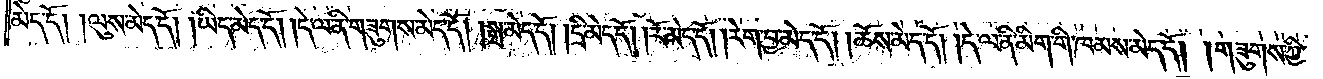མེད་དོ། །ལུས་མེད་དོ། །ཡིད་མེད་དོ། །དེ་ལ་ནི་གཟུགས་མེད་དོ། །སྒྲ་མེད་དོ། །དྲི་མེད་དོ། །རོ་མེད་དོ། །རེག་བྱ་མེད་དོ། །ཆོས་མེད་དོ། །དེ་ལ་ནི་མིག་གི་ཁམས་མེད་དོ། །གཟུགས་ཀྱི་
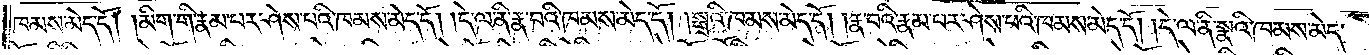ཁམས་མེད་དོ། །མིག་གི་རྣམ་པར་ཤེས་པའི་ཁམས་མེད་དོ། །དེ་ལ་ནི་རྣ་བའི་ཁམས་མེད་དོ། །སྒྲའི་ཁམས་མེད་དོ། །རྣ་བའི་རྣམ་པར་ཤེས་པའི་ཁམས་མེད་དོ། །དེ་ལ་ནི་སྣའི་ཁམས་མེད་
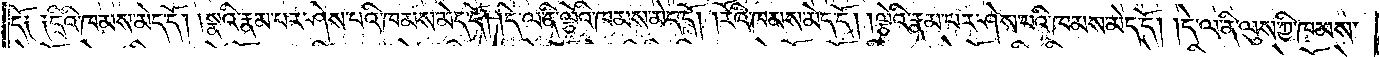དོ༑ ༑དྲིའི་ཁམས་མེད་དོ། །སྣའི་རྣམ་པར་ཤེས་པའི་ཁམས་མེད་དོ། །དེ་ལ་ནི་ལྕེའི་ཁམས་མེད་དོ། །རོའི་ཁམས་མེད་དོ། །ལྕེའི་རྣམ་པར་ཤེས་པའི་ཁམས་མེད་དོ། །དེ་ལ་ནི་ལུས་ཀྱི་ཁམས་
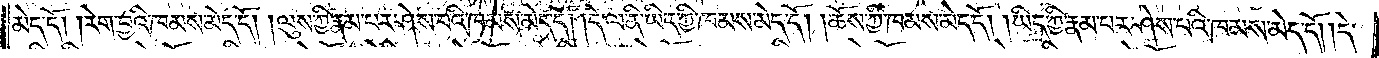མེད་དོ། །རེག་བྱའི་ཁམས་མེད་དོ། །ལུས་ཀྱི་རྣམ་པར་ཤེས་པའི་ཁམས་མེད་དོ། །དེ་ལ་ནི་ཡིད་ཀྱི་ཁམས་མེད་དོ། །ཆོས་ཀྱི་ཁམས་མེད་དོ། །ཡིད་ཀྱི་རྣམ་པར་ཤེས་པའི་ཁམས་མེད་དོ། །དེ་
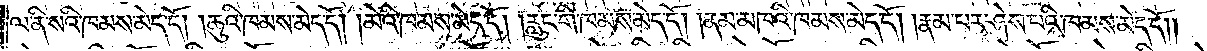ལ་ནི་སའི་ཁམས་མེད་དོ། །ཆུའི་ཁམས་མེད་དོ། །མེའི་ཁམས་མེད་དོ། །རླུང་གི་ཁམས་མེད་དོ། །ནམ་མཁའི་ཁམས་མེད་དོ། །རྣམ་པར་ཤེས་པའི་ཁམས་མེད་དོ༎
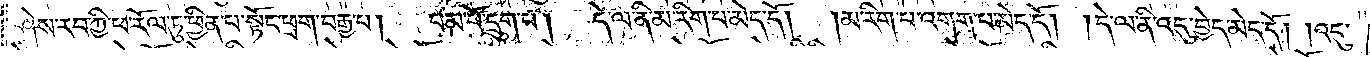ཤེས་རབ་ཀྱི་ཕ་རོལ་ཏུ་ཕྱིན་པ་སྟོང་ཕྲག་བརྒྱ་པ། བམ་པོ་དྲུག་པ། དེ་ལ་ནི་མ་རིག་པ་མེད་དོ། །མ་རིག་པ་འགག་པ་མེད་དོ། །དེ་ལ་ནི་འདུ་བྱེད་མེད་དོ། །འདུ་
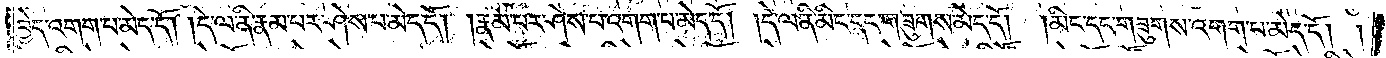བྱེད་འགག་པ་མེད་དོ། །དེ་ལ་ནི་རྣམ་པར་ཤེས་པ་མེད་དོ། །རྣམ་པར་ཤེས་པ་འགག་པ་མེད་དོ། །དེ་ལ་ནི་མིང་དང་གཟུགས་མེད་དོ། །མིང་དང་གཟུགས་འགག་པ་མེད་དོ། །
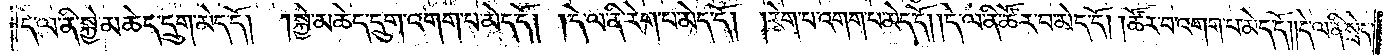དེ་ལ་ནི་སྐྱེ་མཆེད་དྲུག་མེད་དོ། །སྐྱེ་མཆེད་དྲུག་འགག་པ་མེད་དོ། །དེ་ལ་ནི་རེག་པ་མེད་དོ། །རེག་པ་འགག་པ་མེད་དོ། །དེ་ལ་ནི་ཚོར་བ་མེད་དོ། །ཚོར་བ་འགག་པ་མེད་དོ། །དེ་ལ་ནི་སྲེད་
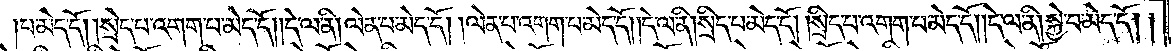པ་མེད་དོ། །སྲེད་པ་འགག་པ་མེད་དོ། །དེ་ལ་ནི། ལེན་པ་མེད་དོ། །ལེན་པ་འགག་པ་མེད་དོ། །དེ་ལ་ནི། སྲིད་པ་མེད་དོ། །སྲིད་པ་འགག་པ་མེད་དོ། །དེ་ལ་ནི། སྐྱེ་བ་མེད་དོ། །
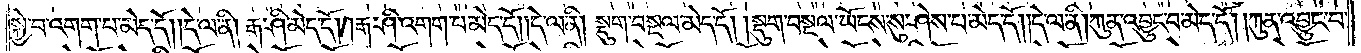སྐྱེ་བ་འགག་པ་མེད་དོ། །དེ་ལ་ནི། རྒ་ཤི་མེད་དོ། །རྒ་ཤི་འགག་པ་མེད་དོ། །དེ་ལ་ནི། སྡུག་བསྔལ་མེད་དོ། །སྡུག་བསྔལ་ཡོངས་སུ་ཤེས་པ་མེད་དོ། །དེ་ལ་ནི། ཀུན་འབྱུང་བ་མེད་དོ། །ཀུན་འབྱུང་བ་
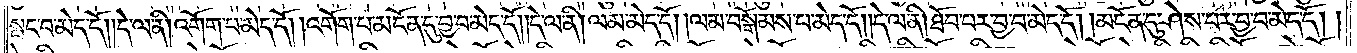སྤང་བ་མེད་དོ། །དེ་ལ་ནི། འགོག་པ་མེད་དོ། །འགོག་པ་མངོན་དུ་བྱ་བ་མེད་དོ། །དེ་ལ་ནི། ལམ་མེད་དོ། །ལམ་བསྒོམས་པ་མེད་དོ། །དེ་ལ་ནི། ཐོབ་པར་བྱ་བ་མེད་དོ། །མངོན་དུ་ཤེས་པར་བྱ་བ་མེད་དོ། །
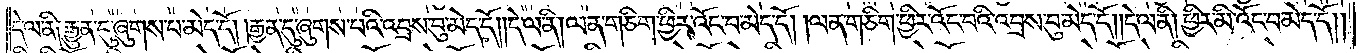དེ་ལ་ནི། རྒྱུན་དུ་ཞུགས་པ་མེད་དོ། །རྒྱན་དུ་ཞུགས་པའི་འབྲས་བུ་མེད་དོ། །དེ་ལ་ནི། ལན་གཅིག་ཕྱིར་འོང་བ་མེད་དོ། །ལན་གཅིག་ཕྱིར་འོང་བའི་འབྲས་བུ་མེད་དོ། །དེ་ལ་ནི། ཕྱིར་མི་འོང་བ་མེད་དོ། །
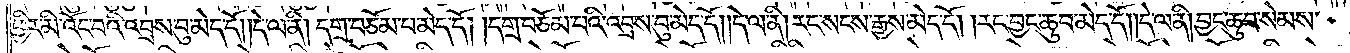ཕྱིར་མི་འོང་བའི་འབྲས་བུ་མེད་དོ། །དེ་ལ་ནི། དགྲ་བཅོམ་པ་མེད་དོ། །དགྲ་བཅོམ་པའི་འབྲས་བུ་མེད་དོ། །དེ་ལ་ནི། རང་སངས་རྒྱས་མེད་དོ། །རང་བྱང་ཆུབ་མེད་དོ། །དེ་ལ་ནི། བྱང་ཆུབ་སེམས་
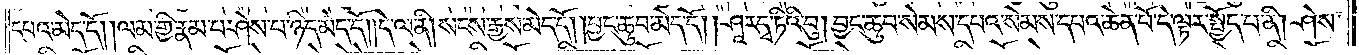དཔའ་མེད་དོ། །ལམ་གྱི་རྣམ་པ་ཤེས་པ་ཉིད་མེད་དོ། །དེ་ལ་ནི། སངས་རྒྱས་མེད་དོ། །བྱང་ཆུབ་མེད་དོ། །ཤཱ་ར་དྭ་ཏིའི་བུ། བྱང་ཆུབ་སེམས་དཔའ་སེམས་དཔའ་ཆེན་པོ་དེ་ལྟར་སྤྱོད་པ་ནི། ཤེས་
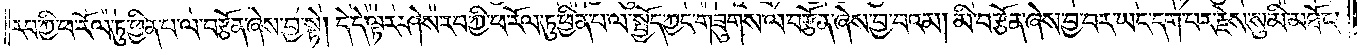རབ་ཀྱི་ཕ་རོལ་ཏུ་ཕྱིན་པ་ལ་བརྩོན་ཞེས་བྱ་སྟེ། དེ་དེ་ལྟར་ཤེས་རབ་ཀྱི་ཕ་རོལ་ཏུ་ཕྱིན་པ་ལ་སྤྱོད་ཀྱང་གཟུགས་ལ་བརྩོན་ཞེས་བྱ་བའམ། མི་བརྩོན་ཞེས་བྱ་བར་ཡང་དག་པར་རྗེས་སུ་མི་མཐོང་
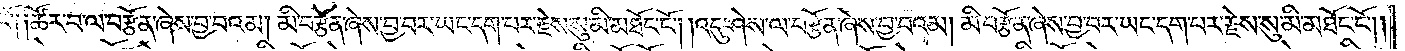ངོ༑ ༑ཚོར་བ་ལ་བརྩོན་ཞེས་བྱ་བའམ། མི་བརྩོན་ཞེས་བྱ་བར་ཡང་དག་པར་རྗེས་སུ་མི་མཐོང་ངོ༌། །འདུ་ཤེས་ལ་བརྩོན་ཞེས་བྱ་བའམ། མི་བརྩོན་ཞེས་བྱ་བར་ཡང་དག་པར་རྗེས་སུ་མི་མཐོང་ངོ༌། །
